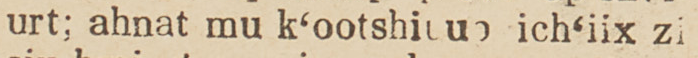urt; ahnat mu k'ootshiuuo ich'iix zi
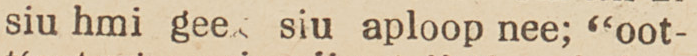siu hmi geex siu aploop nee; "oot-
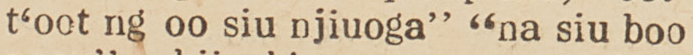t'oot ng oo siu njiuoga" "na siu boo
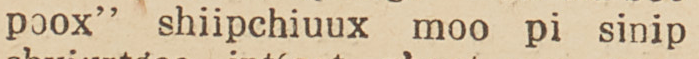poox" shiipchiuux moo pi sinip
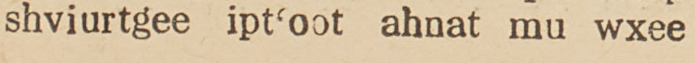shviurtgee ipt'oot ahnat mu wxee
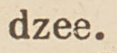dzee.
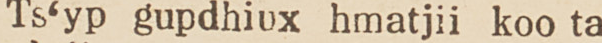Ts'yp gupdhiux hmatjii koo ta
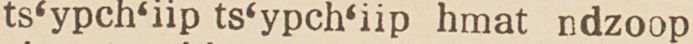ts'ypch'iip ts'ypch'iip hmat ndzoop
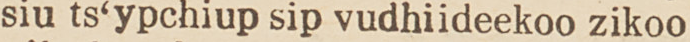siu ts'ypchiup sip vudhiideekoo zikoo
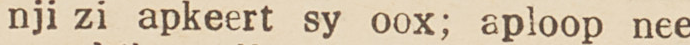nji zi apkeert sy oox; aploop nee
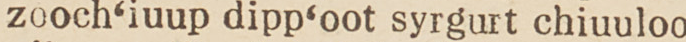zooch'iuup dipp'oot syrgurt chiuuloo
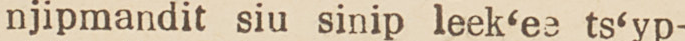njipmandit siu sinip leek'ee ts'yp-
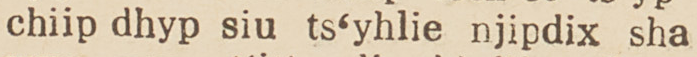chiip dhyp siu ts-yhlie njipdix sha
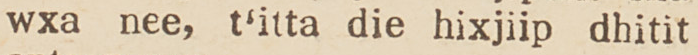wxa nee, t'itta die hixjiip dhitit
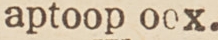aptoop oox.
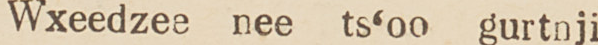Wxeedzee nee ts'oo gurtnji
